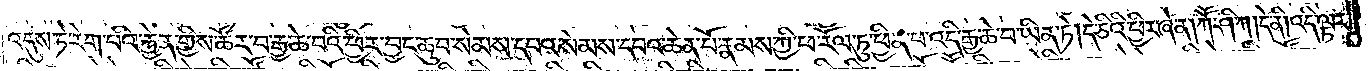འདུས་ཏེ་རེག་པའི་རྐྱེན་གྱིས་ཚོར་བ་རྒྱ་ཆེ་བའི་ཕྱིར་བྱང་ཆུབ་སེམས་དཔའ་སེམས་དཔའ་ཆེན་པོ་རྣམས་ཀྱི་ཕ་རོལ་ཏུ་ཕྱིན་པ་འདི་རྒྱ་ཆེ་བ་ཡིན་ཏེ། དེ་ཅིའི་ཕྱིར་ཞེ་ན། ཀཽ་ཤི་ཀ །དེ་ནི། འདི་ལྟར་
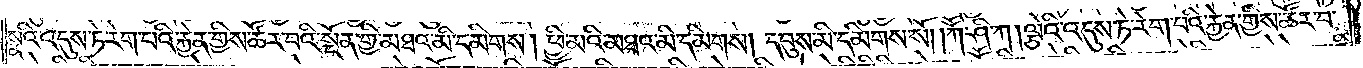སྣའི་འདུས་ཏེ་རེག་པའི་རྐྱེན་གྱིས་ཚོར་བའི་སྔོན་གྱི་མཐའ་མི་དམིགས། ཕྱི་མའི་མཐའ་མི་དམིགས། དབུས་མི་དམིགས་སོ། །ཀཽ་ཤི་ཀ །ལྕེའི་འདུས་ཏེ་རེག་པའི་རྐྱེན་གྱིས་ཚོར་བ་
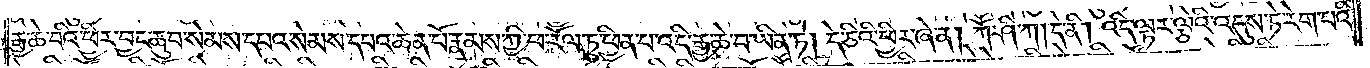རྒྱ་ཆེ་བའི་ཕྱིར་བྱང་ཆུབ་སེམས་དཔའ་སེམས་དཔའ་ཆེན་པོ་རྣམས་ཀྱི་ཕ་རོལ་ཏུ་ཕྱིན་པ་འདི་རྒྱ་ཆེ་བ་ཡིན་ཏེ། དེ་ཅིའི་ཕྱིར་ཞེ་ན། ཀཽ་ཤི་ཀ །དེ་ནི། འདི་ལྟར་ལྕེའི་འདུས་ཏེ་རེག་པའི་
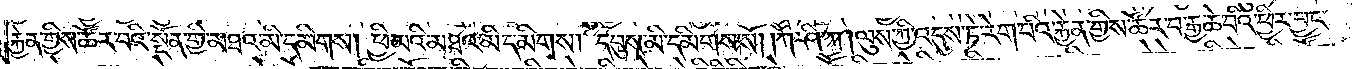རྐྱེན་གྱིས་ཚོར་བའི་སྔོན་གྱི་མཐའ་མི་དམིགས། ཕྱི་མའི་མཐའ་མི་དམིགས། དབུས་མི་དམིགས་སོ། །ཀཽ་ཤི་ཀ །ལུས་ཀྱི་འདུས་ཏེ་རེག་པའི་རྐྱེན་གྱིས་ཚོར་བ་རྒྱ་ཆེ་བའི་ཕྱིར་བྱང་
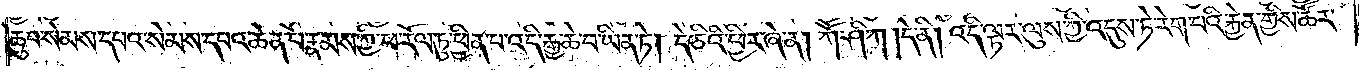ཆུབ་སེམས་དཔའ་སེམས་དཔའ་ཆེན་པོ་རྣམས་ཀྱི་ཕ་རོལ་ཏུ་ཕྱིན་པ་འདི་རྒྱ་ཆེ་བ་ཡིན་ཏེ། དེ་ཅིའི་ཕྱིར་ཞེ་ན། ཀཽ་ཤི་ཀ །དེ་ནི། འདི་ལྟར་ལུས་ཀྱི་འདུས་ཏེ་རེག་པའི་རྐྱེན་གྱིས་ཚོར་
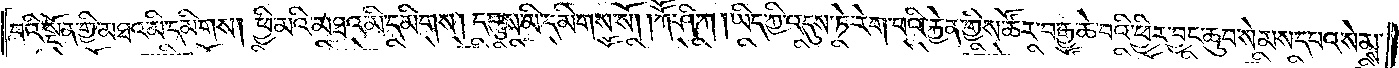བའི་སྔོན་གྱི་མཐའ་མི་དམིགས། ཕྱི་མའི་མཐའ་མི་དམིགས། དབུས་མི་དམིགས་སོ། །ཀཽ་ཤི་ཀ །ཡིད་ཀྱི་འདུས་ཏེ་རེག་པའི་རྐྱེན་གྱིས་ཚོར་བ་རྒྱ་ཆེ་བའི་ཕྱིར་བྱང་ཆུབ་སེམས་དཔའ་སེམས་
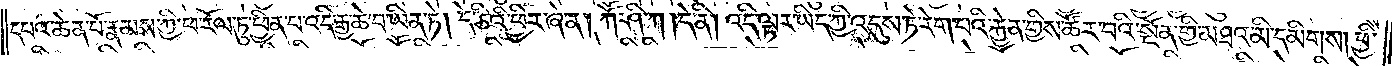དཔའ་ཆེན་པོ་རྣམས་ཀྱི་ཕ་རོལ་ཏུ་ཕྱིན་པ་འདི་རྒྱ་ཆེ་བ་ཡིན་ཏེ། དེ་ཅིའི་ཕྱིར་ཞེ་ན། ཀཽ་ཤི་ཀ །དེ་ནི། འདི་ལྟར་ཡིད་ཀྱི་འདུས་ཏེ་རེག་པའི་རྐྱེན་གྱིས་ཚོར་བའི་སྔོན་གྱི་མཐའ་མི་དམིགས། ཕྱི་
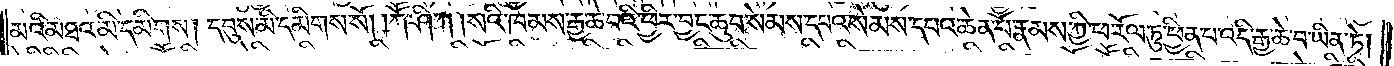མའི་མཐའ་མི་དམིགས། དབུས་མི་དམིགས་སོ། །ཀཽ་ཤི་ཀ །སའི་ཁམས་རྒྱ་ཆེ་བའི་ཕྱིར་བྱང་ཆུབ་སེམས་དཔའ་སེམས་དཔའ་ཆེན་པོ་རྣམས་ཀྱི་ཕ་རོལ་ཏུ་ཕྱིན་པ་འདི་རྒྱ་ཆེ་བ་ཡིན་ཏེ།
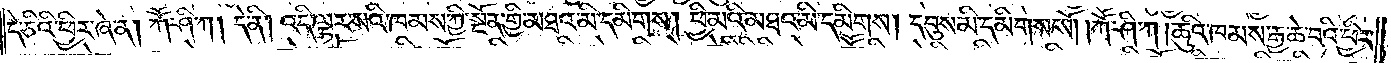དེ་ཅིའི་ཕྱིར་ཞེ་ན། ཀཽ་ཤི་ཀ། དེ་ནི། འདི་ལྟར་སའི་ཁམས་ཀྱི་སྔོན་གྱི་མཐའ་མི་དམིགས། ཕྱི་མའི་མཐའ་མི་དམིགས། དབུས་མི་དམིགས་སོ། །ཀཽ་ཤི་ཀ །ཆུའི་ཁམས་རྒྱ་ཆེ་བའི་ཕྱིར་
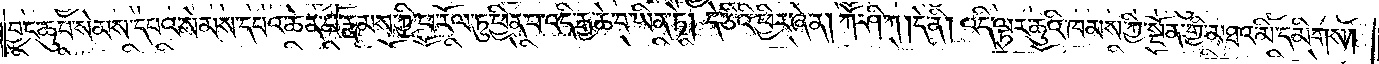བྱང་ཆུབ་སེམས་དཔའ་སེམས་དཔའ་ཆེན་པོ་རྣམས་ཀྱི་ཕ་རོལ་ཏུ་ཕྱིན་པ་འདི་རྒྱ་ཆེ་བ་ཡིན་ཏེ། དེ་ཅིའི་ཕྱིར་ཞེ་ན། ཀཽ་ཤི་ཀ །དེ་ནི། འདི་ལྟར་ཆུའི་ཁམས་ཀྱི་སྔོན་གྱི་མཐའ་མི་དམིགས།
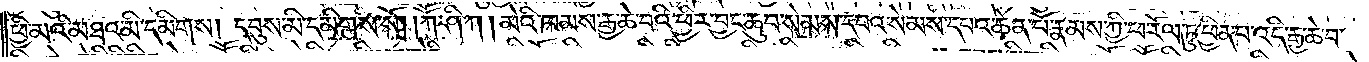ཕྱི་མའི་མཐའ་མི་དམིགས། དབུས་མི་དམིགས་སོ། །ཀཽ་ཤི་ཀ །མེའི་ཁམས་རྒྱ་ཆེ་བའི་ཕྱིར་བྱང་ཆུབ་སེམས་དཔའ་སེམས་དཔའ་ཆེན་པོ་རྣམས་ཀྱི་ཕ་རོལ་ཏུ་ཕྱིན་པ་འདི་རྒྱ་ཆེ་བ་
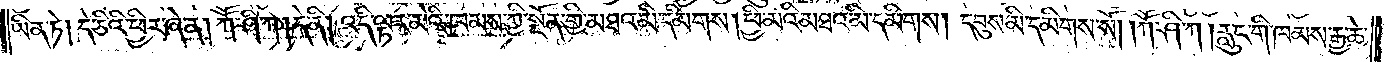ཡིན་ཏེ། དེ་ཅིའི་ཕྱིར་ཞེ་ན། ཀཽ་ཤི་ཀ །དེ་ནི། འདི་ལྟར་མིའི་ཁམས་ཀྱི་སྔོན་གྱི་མཐའ་མི་དམིགས། ཕྱི་མའི་མཐའ་མི་དམིགས། དབུས་མི་དམིགས་སོ། །ཀཽ་ཤི་ཀ །རླུང་གི་ཁམས་རྒྱ་ཆེ་
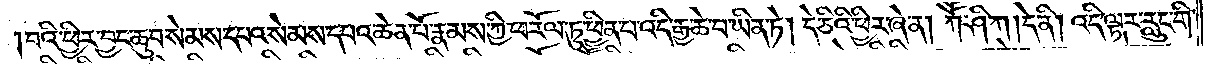བའི་ཕྱིར་བྱང་ཆུབ་སེམས་དཔའ་སེམས་དཔའ་ཆེན་པོ་རྣམས་ཀྱི་ཕ་རོལ་ཏུ་ཕྱིན་པ་འདི་རྒྱ་ཆེ་བ་ཡིན་ཏེ། དེ་ཅིའི་ཕྱིར་ཞེ་ན། ཀཽ་ཤི་ཀ །དེ་ནི། འདི་ལྟར་རླུང་གི་
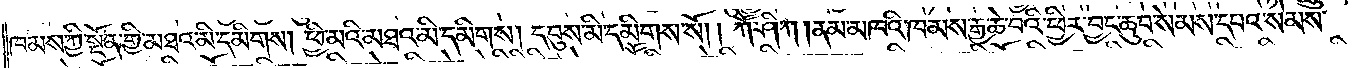ཁམས་ཀྱི་སྔོན་གྱི་མཐའ་མི་དམིགས། ཕྱི་མའི་མཐའ་མི་དམིགས། དབུས་མི་དམིགས་སོ། །ཀཽ་ཤི་ཀ །ནམ་མཁའི་ཁམས་རྒྱ་ཆེ་བའི་ཕྱིར་བྱང་ཆུབ་སེམས་དཔའ་སེམས་
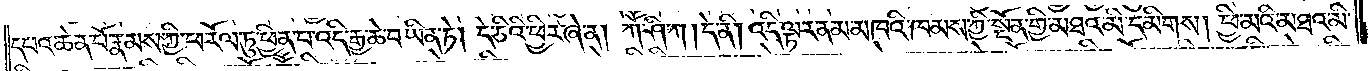དཔའ་ཆེན་པོ་རྣམས་ཀྱི་ཕ་རོལ་ཏུ་ཕྱིན་པ་འདི་རྒྱ་ཆེ་བ་ཡིན་ཏེ། དེ་ཅིའི་ཕྱིར་ཞེ་ན། ཀཽ་ཤི་ཀ །དེ་ནི། འདི་ལྟར་ནམ་མཁའི་ཁམས་ཀྱི་སྔོན་གྱི་མཐའ་མི་དམིགས། ཕྱི་མའི་མཐའ་མི་
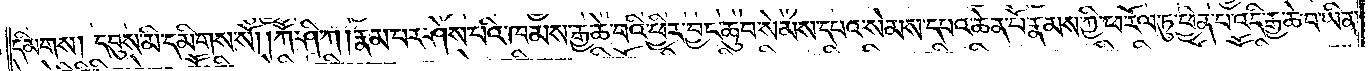དམིགས། དབུས་མི་དམིགས་སོ། །ཀཽ་ཤི་ཀ །རྣམ་པར་ཤེས་པའི་ཁམས་རྒྱ་ཆེ་བའི་ཕྱིར་བྱང་ཆུབ་སེམས་དཔའ་སེམས་དཔའ་ཆེན་པོ་རྣམས་ཀྱི་ཕ་རོལ་ཏུ་ཕྱིན་པ་འདི་རྒྱ་ཆེ་བ་ཡིན་
